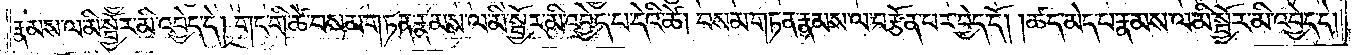རྣམས་ལ་མི་སྦྱོར་མི་འབྱེད་དེ། གང་གི་ཚེ་བསམ་གཏན་རྣམས་ལ་མི་སྦྱོར་མི་འབྱེད་པ་དེའི་ཚེ། བསམ་གཏན་རྣམས་ལ་བརྩོན་པར་བྱེད་དོ། །ཚད་མེད་པ་རྣམས་ལ་མི་སྦྱོར་མི་འབྱེད་དེ།
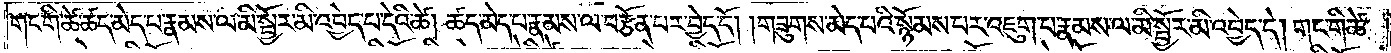གང་གི་ཚེ་ཚད་མེད་པ་རྣམས་ལ་མི་སྦྱོར་མི་འབྱེད་པ་དེའི་ཚེ། ཚད་མེད་པ་རྣམས་ལ་བརྩོན་པར་བྱེད་དོ། །གཟུགས་མེད་པའི་སྙོམས་པར་འཇུག་པ་རྣམས་ལ་མི་སྦྱོར་མི་འབྱེད་དེ། གང་གི་ཚེ་
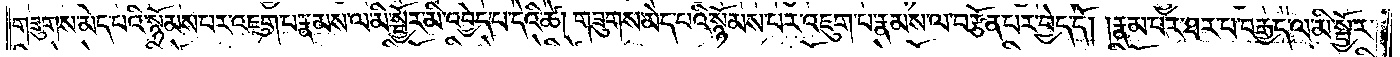གཟུགས་མེད་པའི་སྙོམས་པར་འཇུག་པ་རྣམས་ལ་མི་སྦྱོར་མི་འབྱེད་པ་དེའི་ཚེ། གཟུགས་མེད་པའི་སྙོམས་པར་འཇུག་པ་རྣམས་ལ་བརྩོན་པར་བྱེད་དོ། །རྣམ་པར་ཐར་པ་བརྒྱད་ལ་མི་སྦྱོར་
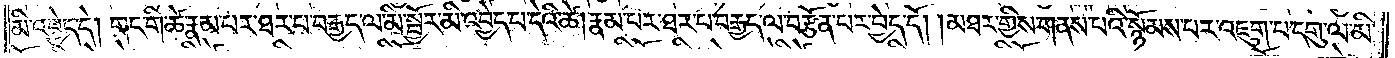མི་འབྱེད་དེ། གང་གི་ཚེ་རྣམ་པར་ཐར་པ་བརྒྱད་ལ་མི་སྦྱོར་མི་འབྱེད་པ་དེའི་ཚེ། རྣམ་པར་ཐར་པ་བརྒྱད་ལ་བརྩོན་པར་བྱེད་དོ། །མཐར་གྱིས་གནས་པའི་སྙོམས་པར་འཇུག་པ་དགུ་ལ་མི་
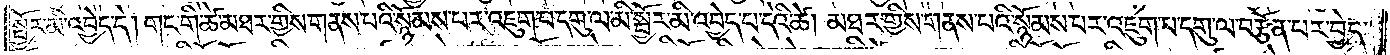སྦྱོར་མི་འབྱེད་དེ། གང་གི་ཚེ་མཐར་གྱིས་གནས་པའི་སྙོམས་པར་འཇུག་པ་དགུ་ལ་མི་སྦྱོར་མི་འབྱེད་པ་དེའི་ཚེ། མཐར་གྱིས་གནས་པའི་སྙོམས་པར་འཇུག་པ་དགུ་ལ་བརྩོན་པར་བྱེད་
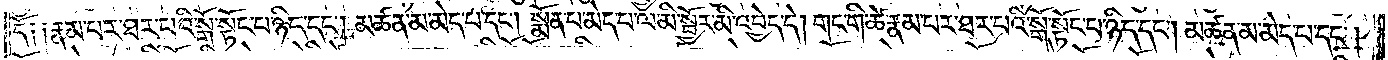དོ༑ ༑རྣམ་པར་ཐར་པའི་སྒོ་སྟོང་པ་ཉིད་དང༌། མཚན་མ་མེད་པ་དང༌། སྨོན་པ་མེད་པ་ལ་མི་སྦྱོར་མི་འབྱེད་དེ། གང་གི་ཚེ་རྣམ་པར་ཐར་པའི་སྒོ་སྟོང་པ་ཉིད་དང༌། མཚན་མ་མེད་པ་དང༌།
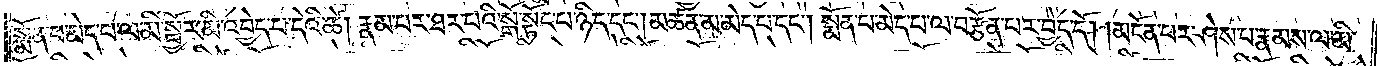སྨོན་པ་མེད་པ་ལ་མི་སྦྱོར་མི་འབྱེད་པ་དེའི་ཚེ། རྣམ་པར་ཐར་པའི་སྒོ་སྟོང་པ་ཉིད་དང༌། མཚན་མ་མེད་པ་དང༌། སྨོན་པ་མེད་པ་ལ་བརྩོན་པར་བྱེད་དོ། །མངོན་པར་ཤེས་པ་རྣམས་ལ་མི་
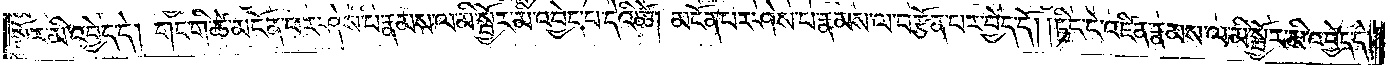སྦྱོར་མི་འབྱེད་དེ། གང་གི་ཚེ་མངོན་པར་ཤེས་པ་རྣམས་ལ་མི་སྦྱོར་མི་འབྱེད་པ་དེའི་ཚེ། མངོན་པར་ཤེས་པ་རྣམས་ལ་བརྩོན་པར་བྱེད་དོ། །ཏིང་ངེ་འཛིན་རྣམས་ལ་མི་སྦྱོར་མི་འབྱེད་དེ།
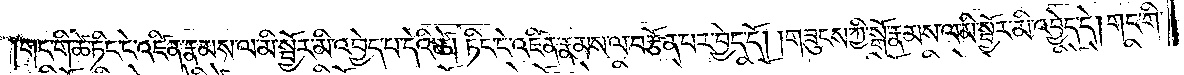གང་གི་ཚེ་ཏིང་ངེ་འཛིན་རྣམས་ལ་མི་སྦྱོར་མི་འབྱེད་པ་དེའི་ཚེ། ཏིང་ངེ་འཛིན་རྣམས་ལ་བརྩོན་པར་བྱེད་དོ། །གཟུངས་ཀྱི་སྒོ་རྣམས་ལ་མི་སྦྱོར་མི་འབྱེད་དེ། གང་གི་
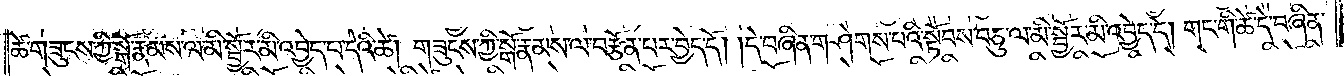ཚེ་གཟུངས་ཀྱི་སྒོ་རྣམས་ལ་མི་སྦྱོར་མི་འབྱེད་པ་དེའི་ཚེ། གཟུངས་ཀྱི་སྒོ་རྣམས་ལ་བརྩོན་པར་བྱེད་དོ། །དེ་བཞིན་གཤེགས་པའི་སྟོབས་བཅུ་ལ་མི་སྦྱོར་མི་འབྱེད་དེ། གང་གི་ཚེ་དེ་བཞིན་
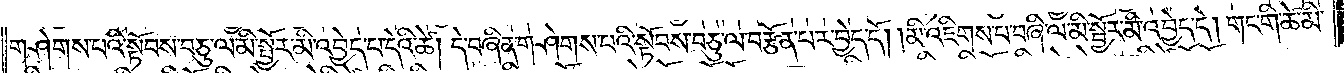གཤེགས་པའི་སྟོབས་བཅུ་ལ་མི་སྦྱོར་མི་འབྱེད་པ་དེའི་ཚེ། དེ་བཞིན་གཤེགས་པའི་སྟོབས་བཅུ་ལ་བརྩོན་པར་བྱེད་དོ། །མི་འཇིགས་པ་བཞི་ལ་མི་སྦྱོར་མི་འབྱེད་དེ། གང་གི་ཚེ་མི་
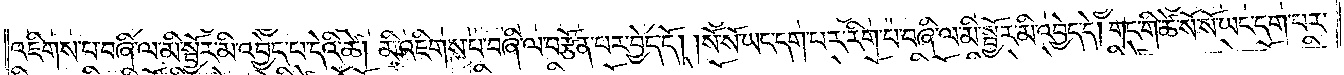འཇིགས་པ་བཞི་ལ་མི་སྦྱོར་མི་འབྱེད་པ་དེའི་ཚེ། མི་འཇིགས་པ་བཞི་ལ་བརྩོན་པར་བྱེད་དོ། །སོ་སོ་ཡང་དག་པར་རིག་པ་བཞི་ལ་མི་སྦྱོར་མི་འབྱེད་དེ། གང་གི་ཚེ་སོ་སོ་ཡང་དག་པར་
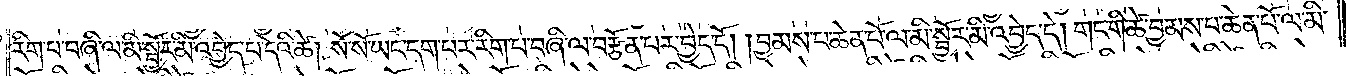རིག་པ་བཞི་ལ་མི་སྦྱོར་མི་འབྱེད་པ་དེའི་ཚེ། སོ་སོ་ཡང་དག་པར་རིག་པ་བཞི་ལ་བརྩོན་པར་བྱེད་དོ། །བྱམས་པ་ཆེན་པོ་ལ་མི་སྦྱོར་མི་འབྱེད་དེ། གང་གི་ཚེ་བྱམས་པ་ཆེན་པོ་ལ་མི་
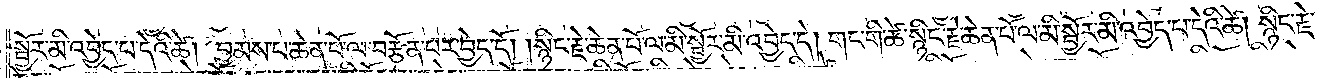སྦྱོར་མི་འབྱེད་པ་དེའི་ཚེ། བྱམས་པ་ཆེན་པོ་ལ་བརྩོན་པར་བྱེད་དོ། །སྙིང་རྗེ་ཆེན་པོ་ལ་མི་སྦྱོར་མི་འབྱེད་དེ། གང་གི་ཚེ་སྙིང་རྗེ་ཆེན་པོ་ལ་མི་སྦྱོར་མི་འབྱེད་པ་དེའི་ཚེ། སྙིང་རྗེ་
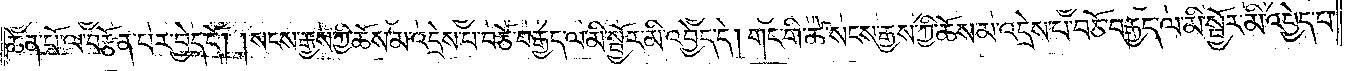ཆེན་པོ་ལ་བརྩོན་པར་བྱེད་དོ། །སངས་རྒྱས་ཀྱི་ཆོས་མ་འདྲེས་པ་བཅོ་བརྒྱད་ལ་མི་སྦྱོར་མི་འབྱེད་དེ། གང་གི་ཚེ་སངས་རྒྱས་ཀྱི་ཆོས་མ་འདྲེས་པ་བཅོ་བརྒྱད་ལ་མི་སྦྱོར་མི་འབྱེད་པ་
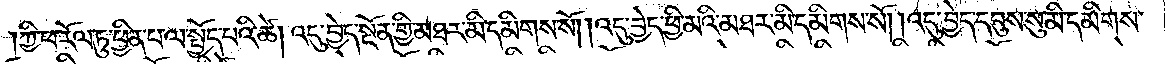ཀྱི་ཕ་རོལ་ཏུ་ཕྱིན་པ་ལ་སྤྱོད་པའི་ཚེ། འདུ་བྱེད་སྔོན་གྱི་མཐར་མི་དམིགས་སོ། །འདུ་བྱེད་ཕྱི་མའི་མཐར་མི་དམིགས་སོ། །འདུ་བྱེད་དབུས་སུ་མི་དམིགས་
